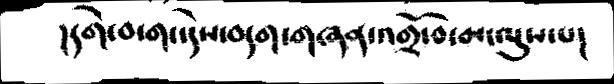།   དགེ་བ་གང་དེས་བདག་གཞན་འགྲོ་བ་མ་ལུས་པ།
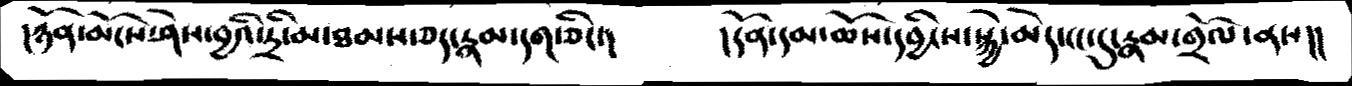།ཉོན་མོངས་ཤེས་བྱའི་ཏྲི་མ་ཐམས་ཅད་རྣམ་དག་ཅིང་།      ། དོན་དམ་ཆོས་དབྱིངས་སྐྱེ་མེད་ངང་དུ་རྣམ་གྲོལ་ནས།།
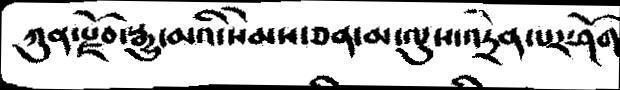ཀུན་རྫོབ་རྒྱུ་མའི་སེམས་ཅན་མ་ལུས་འདྲེན་པར་ཤོག
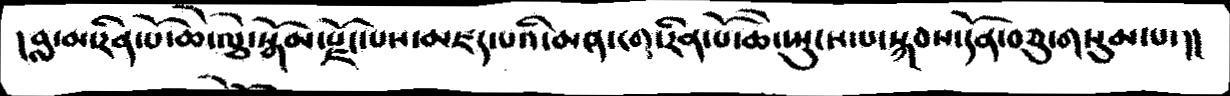།བླ་མ་རིན་པོ་ཆེ་ལྕེ་སྒོམ་སྫོང་པས་མཛད་པའི་མན་ངག་རིན་པོ་ཆེ་སྤུངས་པ་སྐབས་དོན་བཅུ་གསུམ་།།
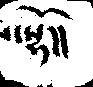ས་སྷོ།།
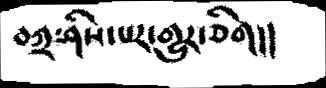བཀྲ་ཤིས་པར་གྱུར་ཅིག།།
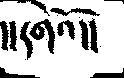།།དགེའོ།།
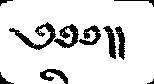༄༅༅།།
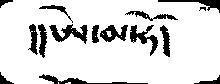།།ཨེ་མ་ཧོ།
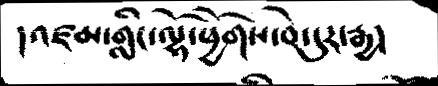།འཛམ་གླིང་ལྷོ་ཕྱོགས་བེ་དུར་རྒྱ།
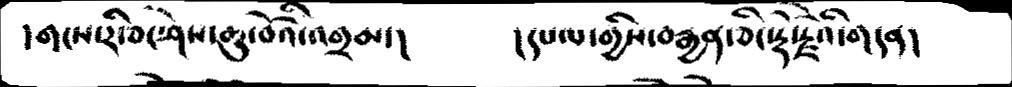།གངས་རི་ཅང་ཤེས་ཆུ་བོའི་འགྲམ་།     །དཔལ་གྱིས་བརྒྱན་ཅིང་རྡོ་རྗེའི་གདན།
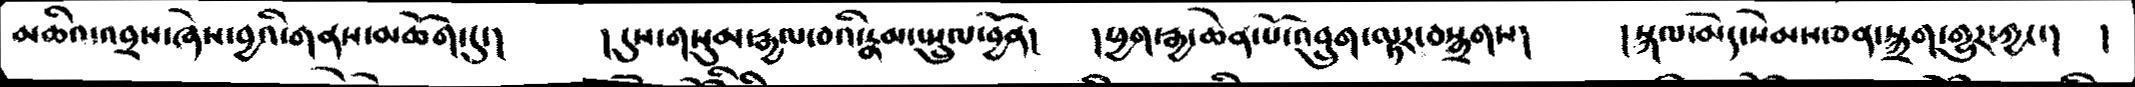མཆིའ་འབྲས་ཞེས་བྱའི་གནས་མཆོག་དུ་།   །དུས་གསུམ་རྒྱལ་བའི་རྣམ་སྤྲུལ་བྱོན།   །ཕྱག་རྒྱ་ཆེན་པོ་འབྲུག་ལྟར་བསྒྲགས།  །སྐལ་མེད་སེམས་ཅན་སྐྲག་གྱུར་ཀྱང་།   །
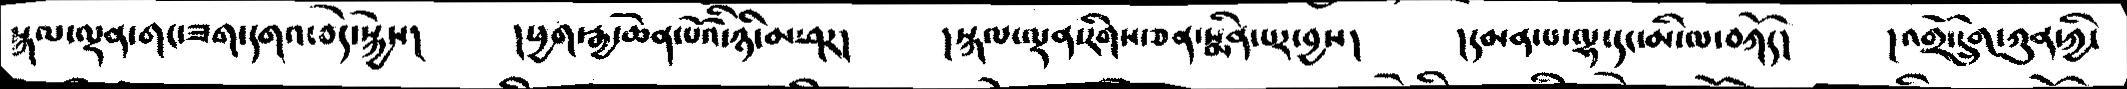སྐལ་ལྡན་གང་ཟག་དགའ་བདེ་སྐྱེས།   །ཕྱག་རྒྱ་ཆེན་པོའི་ཉི་མ་ཤར།   །སྐལ་ལྡན་རིགས་ཅན་སྨིན་པར་བྱས།   །དམན་པ་ལྷ་དང་མི་ལ་བཀོད།   །འགྲོ་དྲུག་ཀུན་ཀྱི་
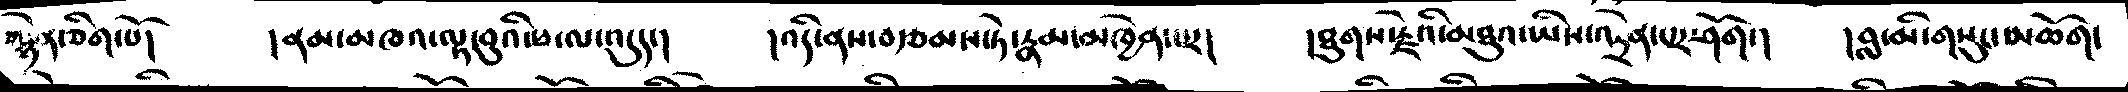ལྷེན་ཅིག་པོ།     །ནམ་མཁའ་ལྟ་བུའི་ཕ་ལ་འདུད་།      །འདི་ནས་བརྩམས་ཏེ་རྣམ་མཁྱེན་བར།       །ཐུགས་རྗེའི་མཐུ་ཡིས་འདྲེན་པར་ཤོག་།     །བླ་མི་གསུང་མཆོག་
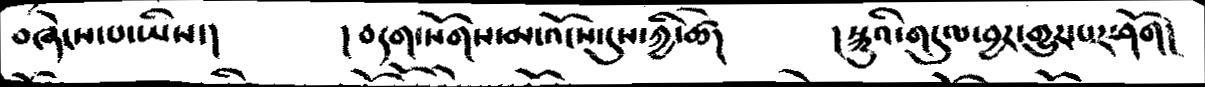བཞེངས་པ་ཡིས་།         །བདག་སོགས་མ་འོངས་དུས་ཀྱི་ཚེ།       །སྐུའི་གདུལ་བྱར་གྱུར་པར་ཤོག།
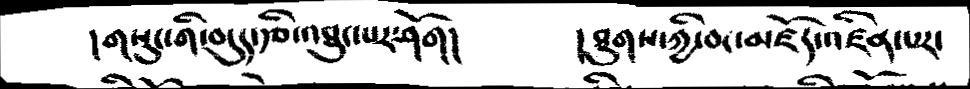།གསུང་གི་བདུད་རྩི་འཐུང་པར་ཤོག།        །ཐུགས་ཀྱི་བང་མཛོད་འཛིན་པར་
